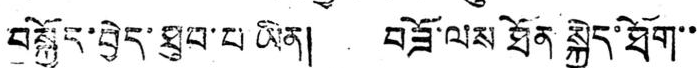བསྐྱོད་བྱེད་ཐུབ་པ ཡིན། བཟོ་ལས ཐོན་སྐྱེད་ཐོག་་
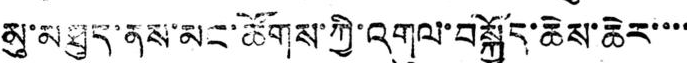མུ་མཐུད་ནས་མང་ཚོགས་ཀྱི་འགུལ་བསྐྱོད་ཆེས་ཆེར་་་་
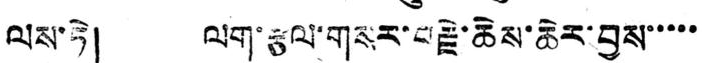ལས་ཏེ། ལག་རྩལ་གསར་བརྗེ་ཆེས་ཆེར་བྱས་་་་་
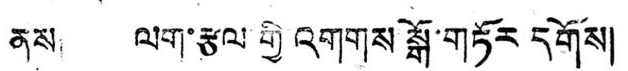ནས། ལག་རྩལ་གྱི འགགས་སྒོ་གཏོར དགོས།
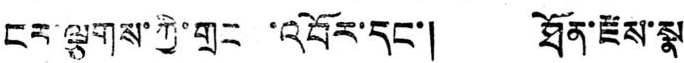ངར་ལྕགས་ཀྱི་གྲངས་འབོར་དང་། ཐོན་རྫས་སྣ་
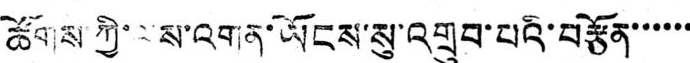ཚོགས་ཀྱི་ལས་འགན་ཡོངས་སུ་འགྲུབ་པའི་བརྩོན་་་་་་
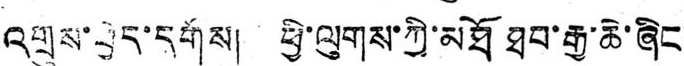འགྲུས་བྱེད་དགོས། ཕྱི་ལུགས་ཀྱི་མཐོ ཐབ་རྒྱ་ཆེ་ཞིང་
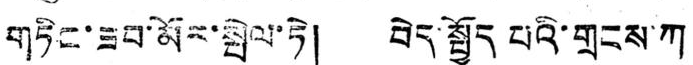གཏིང་ཟབ་མོར་སྤེལ་ཏེ། བེད་སྤྱོད པའི་གྲངས་ཀ
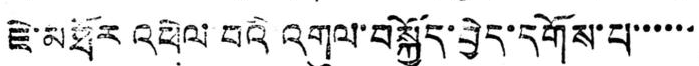ཇེ་མཐོར འཕེལ་བའི འགུལ་བསྐྱོད་བྱེད་དགོས་པ་་་་་་
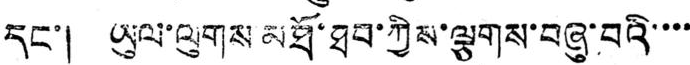དང་། ཡུལ་ལུགས མཐོ་ཐབ་ཀྱིས་ལྕགས་བཞུ་བའི་་་་
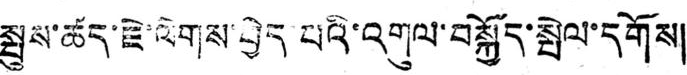སྤུས་ཚད་ཇེ་ལེགས་བྱེད པའི་འགུལ་བསྐྱོད་སྤེལ་དགོས།
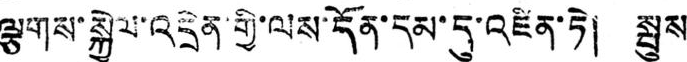ལྕགས་སྐྱེལ་འདྲེན་གྱི་ལས་དོན་དམ་དུ་འཛིན་ཏེ། སྤུས
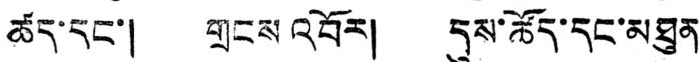ཚད་དང་། གྲངས འབོར། དུས་ཚོད་དང་མཐུན
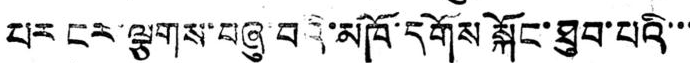པར ངར་ལྕགས་བཞུ་བའི་མཁོ་དགོས སྐོང་ཐུབ་པའི་་་
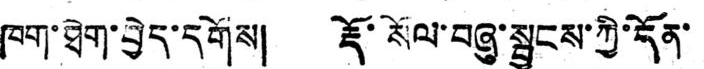ཁག་ཐེག་བྱེད་དགོས། རྡོ་སོལ་བཞུ་སྦྱངས་ཀྱི་དོན་
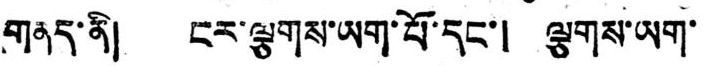གནད་ནི། ངར་ལྕགས་ཡག་པོ་དང་། ལྕགས་ཡག་
